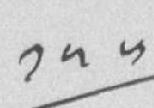༡༥༥
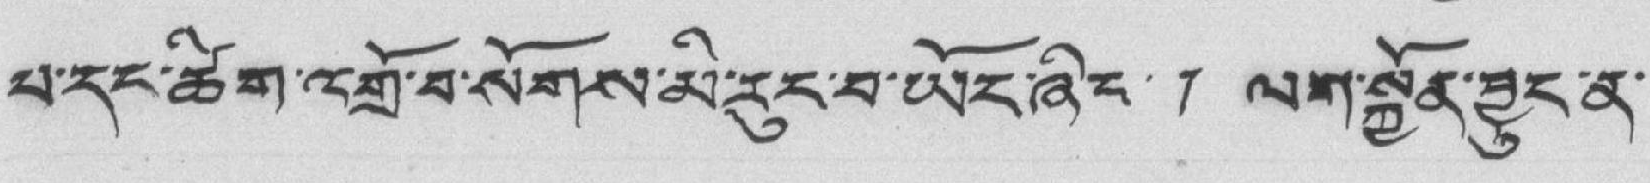པ་དང་ཚིག་འགྲོ་བ་སོགས་མི་རུང་བ་ཡོང་ཞིང་། ལག་སྐྱོན་བྱུང་ན་
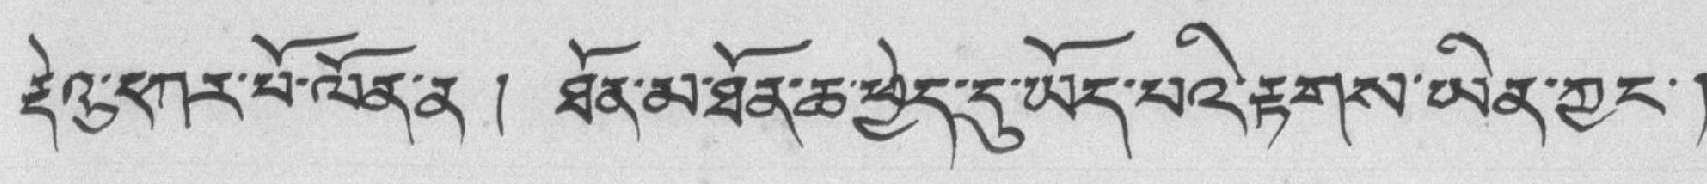རྡེའུ་དཀར་པོ་ལོན་ན ། ཐོན་མ་ཐོན་ཆ་ཕྱེད་དུ་ཡོད་པའི་རྟགས་ཡིན་ཀྱང་།
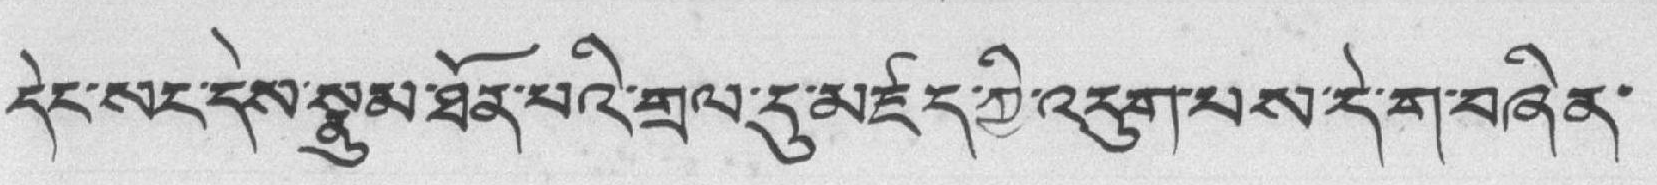དེང་སང་དུས་སྣུམ་ཐོན་པའི་གྲལ་དུ་མཛད་ཀྱི་འདུག་པས་དེ་ག་བཞིམ་
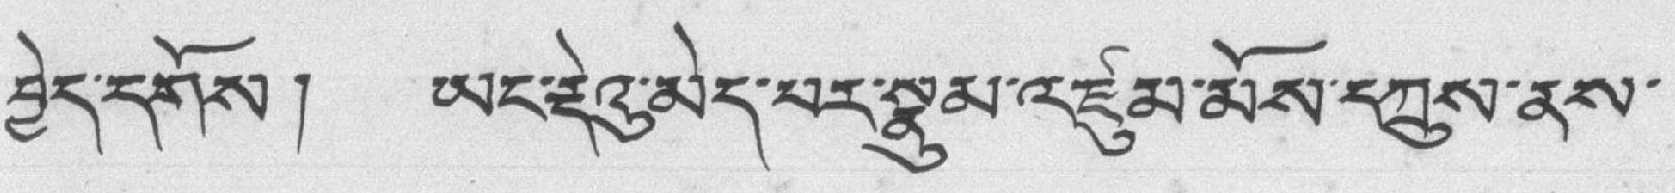བྱེད་དགོས། ཡང་རྡེའུ་མེད་པར་སྣུམ་འཛུམ་མོས་དཀྲུས་ནས་
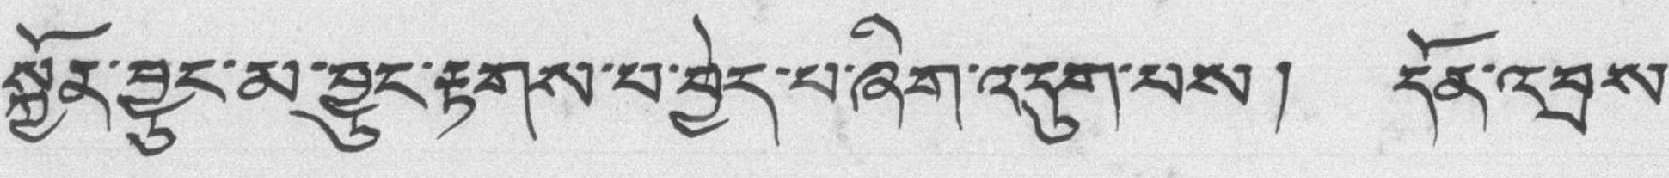སྐྱོན་བྱུང་མ་བྱུང་རྟགས་པ་བྱེད་པ་ཞིག་འདུག་པས། དོན་འབྲས་
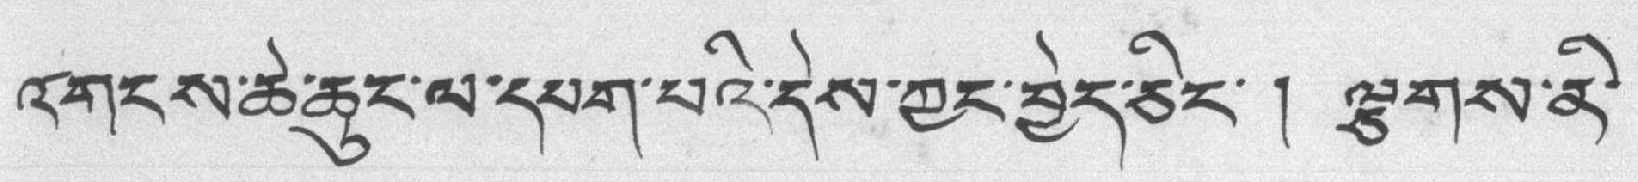འགངས་ཆེ་ཆུང་ལ་དཔག་པའི་དེས་ཀྱང་བྱེད་ཅིང་། ལྕགས་ན་
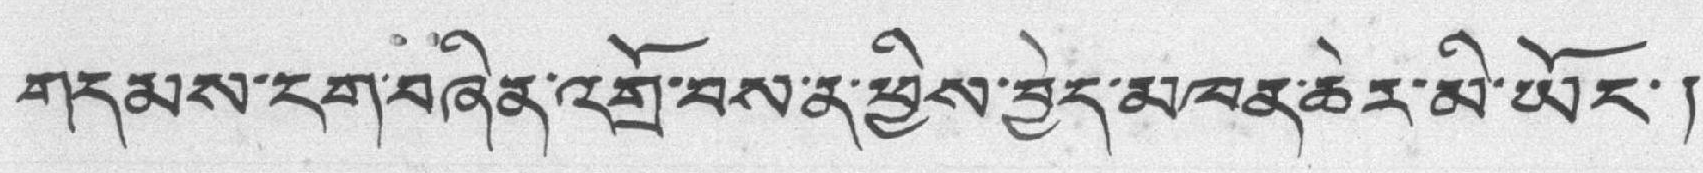གདམས་ངག་བཞིན་འགྲོ་བས་ན་ཕྱིས་བྱེད་མཁན་ཆེར་མི་ཡོང་།
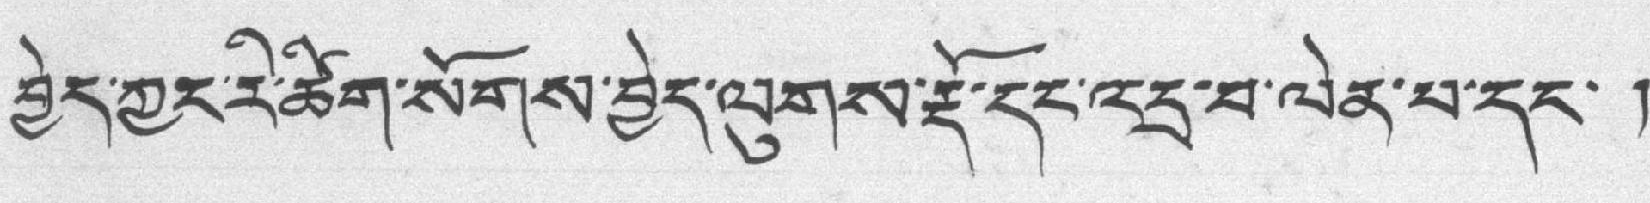བྱེད་ཀྱང་རི་ཚིག་སོགས་བྱེད་ལུགས་རྡོ་དང་འདྲ་བ་ལེན་པ་དང་ །
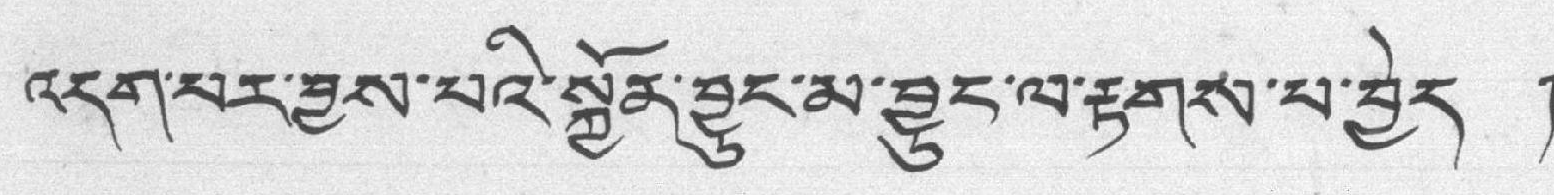འདུག་པར་བྱས་པའི་སྐྱོན་བྱུང་མ་བྱུང་ལ་རྟགས་པ་བྱེད །
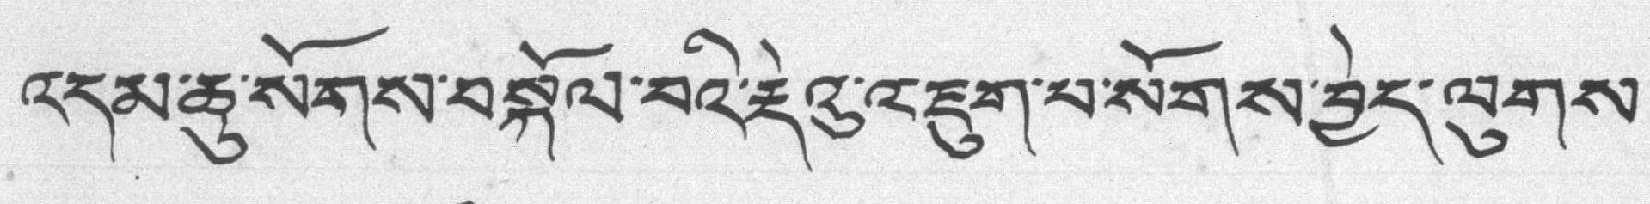འདམ་ཆུ་སོགས་བསྐོལ་བའི་རྡེའུ་འཇུག་པ་སོགས་བྱེད་ལུགས་
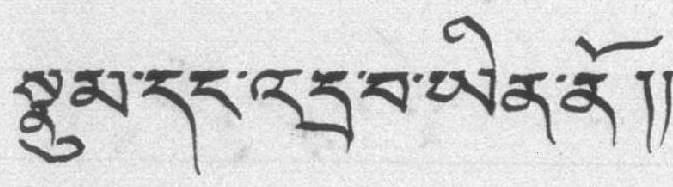སྣུམ་དང་འདྲ་བ་ཡིན་ནོ།།
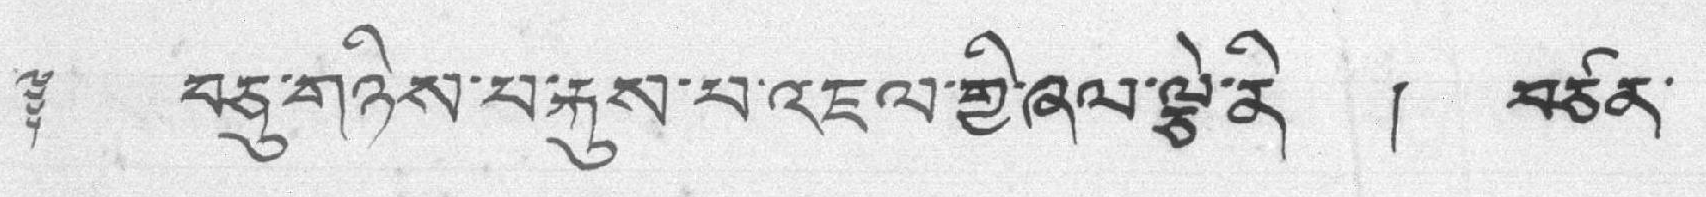༈ བཅུ་གཉིས་པ་རྐུས་པ་འཇལ་གྱི་ཞལ་ལྕེ་ནི །
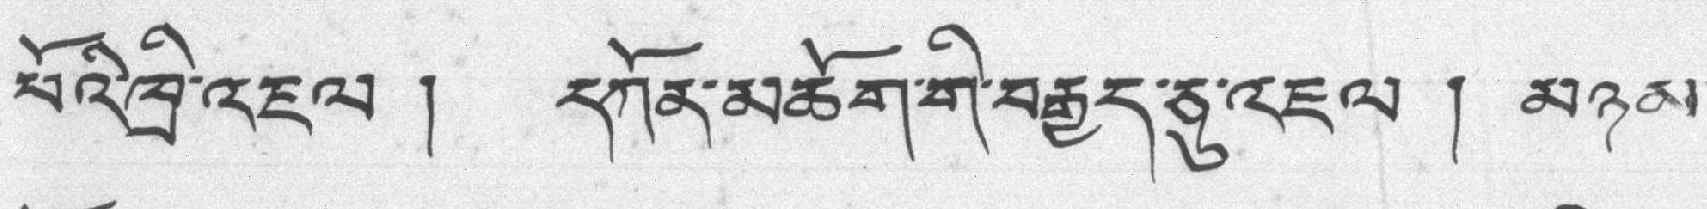པོའི་ཁྲི་འཇལ ། དཀོན་མཆོག་གི་བརྒྱད་དུ་འཇལ ། མཉམ་
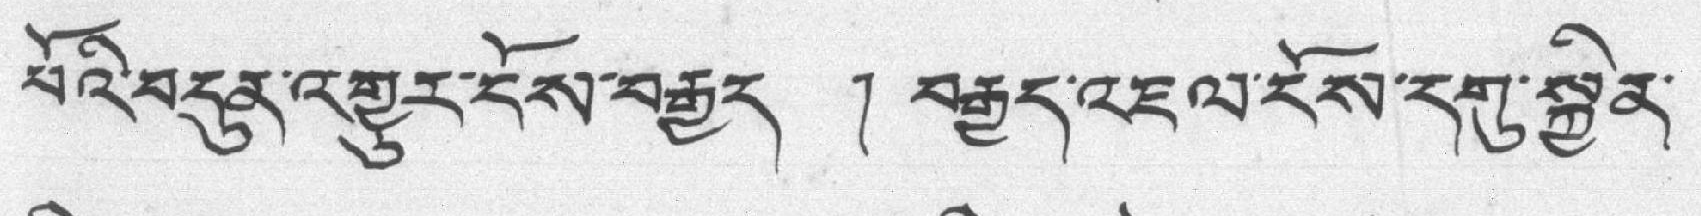པོའི་བདུན་འགྱུར་ངོས་བརྒྱད ། བརྒྱད་འཇལ་ངོས་དགུ་སྐྱིན་
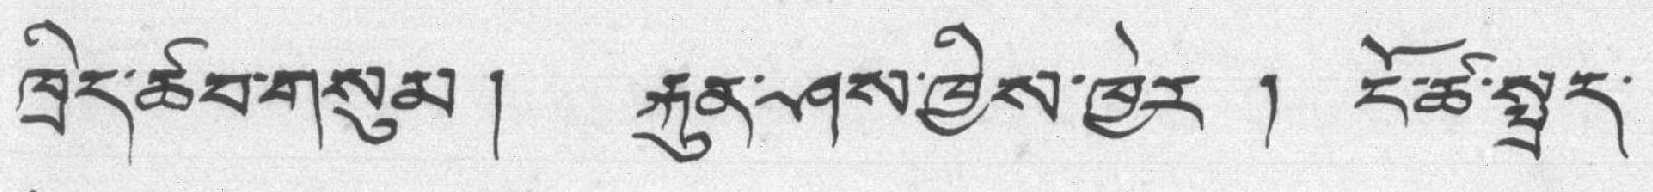ཁྲིད་ཚབ་གསུམ། རྐུན་ཤས་ཁྱིས་ཁྱེར ། ངོ་ཚ་སྤྲོད་
